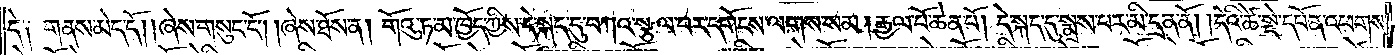དེ༑ གནས་མེད་དོ། །ཞེས་གསུང་ངོ༌། །ཞེས་ཐོས་ན། གོའུ་ཏ་མ་ཁྱོད་ཀྱིས་དེ་སྐད་དུ་བཀའ་སྩལ་བར་དགོངས་ལགས་སམ། རྒྱལ་པོ་ཆེན་པོ། དེ་སྐད་དུ་སྨྲས་པར་མི་དྲན་ནོ། །དེའི་ཚེ་སྡེ་དཔོན་འཕགས་
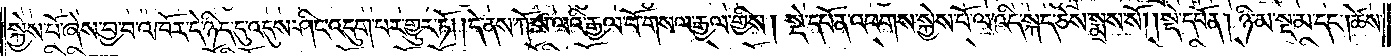སྐྱེས་བོ་ཞེས་བྱ་བ་འཁོར་དེ་ཉིད་དུ་འདུས་ཤིང་འདུག་པར་གྱུར་ཏོ། །དེ་ནས་ཀོ་ས་ལའི་རྒྱལ་པོ་གསལ་རྒྱལ་གྱིས། སྡེ་དཔོན་འཕགས་སྐྱེས་པོ་ལ་འདི་སྐད་ཅེས་སྨྲས་སོ། །སྡེ་དཔོན། ཉི་མ་སྔ་མ་དང༌། ཚེས་
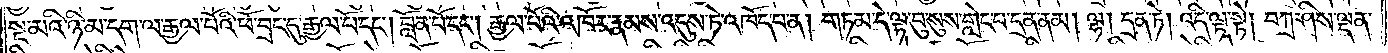སྔ་མའི་ཉི་མ་དག་ལ་རྒྱལ་པོའི་ཕོ་བྲང་དུ་རྒྱལ་པོ་དང༌། བློན་པོ་དང༌། རྒྱལ་པོའི་འཁོར་རྣམས་འདུས་ཏེ་འཁོད་པ་ན། གཏམ་དེ་ལྟ་བུ་སུས་གླེང་པ་དྲན་ནམ། ལྷ། དྲན་ཏེ། འདི་ལྟ་སྟེ། བཀྲ་ཤིས་ལྡན་
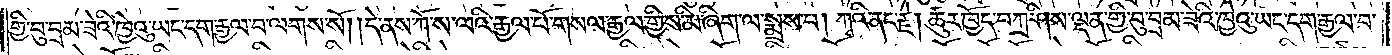གྱི་བུ་བྲམ་ཟེའི་ཁྱེའུ་ཡང་དག་རྒྱལ་བ་ལགས་སོ། །དེ་ནས་ཀོ་ས་ལའི་རྒྱལ་པོ་གསལ་རྒྱལ་གྱིས་མི་ཞིག་ལ་སྨྲས་པ། ཀྭའི་ནང་རྗེ། ཚུར་ཁྱོད་བཀྲ་ཤིས་ལྡན་གྱི་བུ་བྲམ་ཟེའི་ཁྱེའུ་ཡང་དག་རྒྱལ་བ་
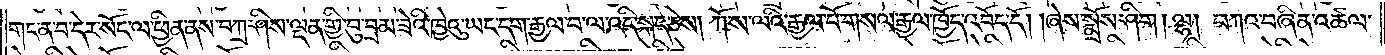གང་ན་བ་དེར་སོང་ལ་ཕྱིན་ནས་བཀྲ་ཤིས་ལྡན་གྱི་བུ་བྲམ་ཟེའི་ཁྱེའུ་ཡང་དག་རྒྱལ་བ་ལ་འདི་སྐད་ཅེས། ཀོ་ས་ལའི་རྒྱལ་པོ་གསལ་རྒྱལ་ཁྱོད་འབོད་དོ། །ཞེས་སྨྲོས་ཤིག། ལྷ། བཀའ་བཞིན་འཚལ་
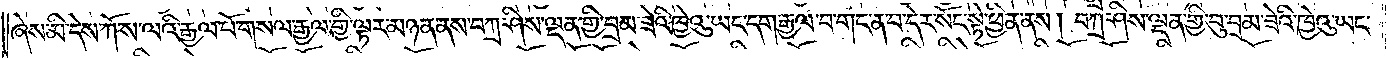ཞེས་མི་དེས་ཀོ་ས་ལའི་རྒྱལ་པོ་གསལ་རྒྱལ་གྱི་ལྟར་མཉན་ནས་བཀྲ་ཤིས་ལྡན་གྱི་བྲམ་ཟེའི་ཁྱེའུ་ཡང་དག་རྒྱལ་བ་གང་ན་བ་དེར་སོང་སྟེ་ཕྱིན་ནས། བཀྲ་ཤིས་ལྡན་གྱི་བུ་བྲམ་ཟེའི་ཁྱེའུ་ཡང་
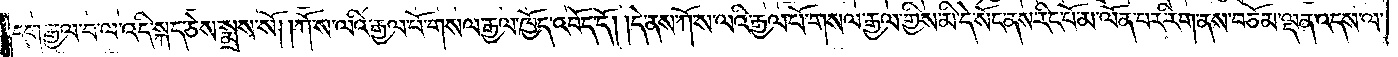དག་རྒྱལ་བ་ལ་འདི་སྐད་ཅེས་སྨྲས་སོ། །ཀོ་ས་ལའི་རྒྱལ་པོ་གསལ་རྒྱལ་ཁྱོད་འབོད་དོ། །དེ་ནས་ཀོ་ས་ལའི་རྒྱལ་པོ་གསལ་རྒྱལ་གྱིས་མི་དེ་སོང་ནས་རིང་པོ་མ་ལོན་པར་རིག་ནས་བཅོམ་ལྡན་འདས་ལ་
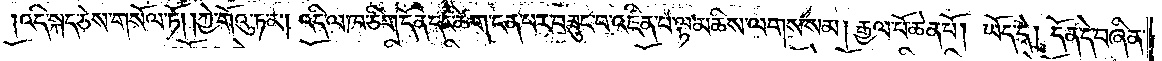འདི་སྐད་ཅེས་གསོལ་ཏོ། །ཀྱེ་གོའུ་ཏ་མ། འདི་ལ་ཁ་ཅིག་དོན་དང་ཚིག་ངན་པར་བཟུང་བ་འཛིན་པ་ལྟ་མཆིས་ལགས་སམ། རྒྱལ་པོ་ཆེན་པོ། ཡོད་དེ། དོན་དེ་བཞིན་
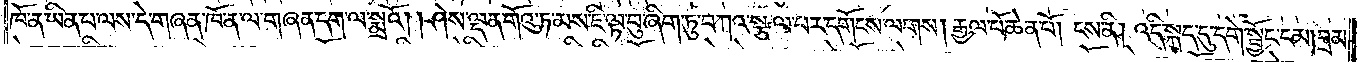ཁོ་ན་ཡིན་པ་ལས་དེ་གཞན་ཁོ་ན་ལ་གཞན་དག་ལ་སྨྲའོ། །ཤེས་ལྡན་གོའུ་ཏ་མས་ཇི་ལྟ་བུ་ཞིག་ཏུ་བཀའ་སྩལ་པར་དགོངས་ལགས། རྒྱལ་པོ་ཆེན་པོ། ངས་ནི། འདི་སྐད་དུ་དགེ་སྦྱོང་ངམ། བྲམ་
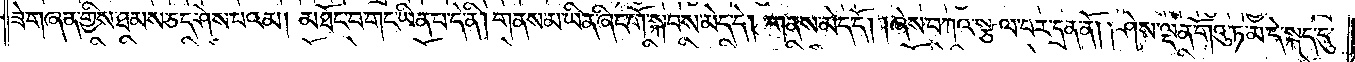ཟེ་གཞན་གྱིས་ཐམས་ཅད་ཤེས་པའམ། མཐོང་བ་གང་ཡིན་པ་དེ་ནི། གནས་མ་ཡིན་ཞིང་གོ་སྐབས་མེད་དེ། གནས་མེད་དོ། །ཞེས་བཀའ་སྩལ་པར་དྲན་ནོ། །ཤེས་ལྡན་གོའུ་ཏ་མ་དེ་སྐད་དུ་
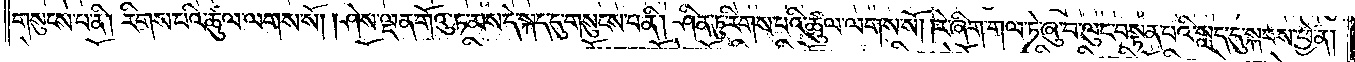གསུངས་པ་ནི། རིགས་པའི་ཚུལ་ལགས་སོ། །ཤེས་ལྡན་གོའུ་ཏ་མས་དེ་སྐད་དུ་གསུངས་པ་ནི། ཤིན་ཏུ་རིགས་པའི་ཚུལ་ལགས་སོ། །རེ་ཞིག་གལ་ཏེ་ཞུ་བ་ལུང་བསྟན་པའི་སླད་དུ་སྐབས་ཕྱེ་ན།
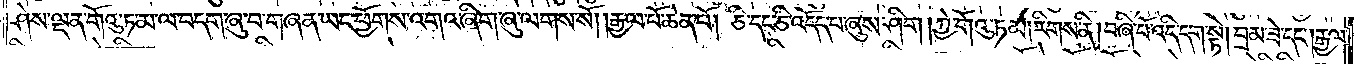ཤེས་ལྡན་གོའུ་ཏ་མ་ལ་བདག་ཞུ་བ་གཞན་ཡང་ཕྱོགས་འགའ་ཞིག་ཞུ་ལགས་སོ། །རྒྱལ་པོ་ཆེན་པོ། ཅི་དང་ཅི་འདོད་པ་ཞུས་ཤིག །ཀྱེ་གོའུ་ཏ་མ། རིགས་ནི། བཞི་པོ་འདི་དག་སྟེ། བྲམ་ཟེ་དང༌། རྒྱལ་
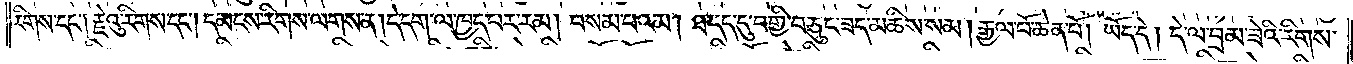རིགས་དང༌། རྗེའུ་རིགས་དང༌། དམངས་རིགས་ལགས་ན། དེ་དག་ལ་ཁྱད་པར་རམ། བསམ་པའམ། ཐ་དད་དུ་བགྱི་བ་ཅུང་ཟད་མཆིས་སམ། རྒྱལ་པོ་ཆེན་པོ། ཡོད་དེ། དེ་ལ་བྲམ་ཟེའི་རིགས་
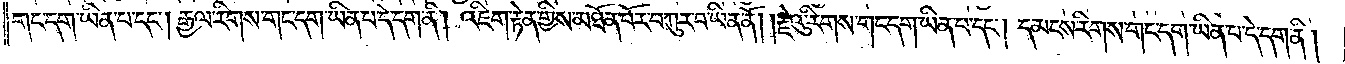གང་དག་ཡིན་པ་དང༌། རྒྱལ་རིགས་གང་དག་ཡིན་པ་དེ་དག་ནི། འཇིག་རྟེན་གྱིས་མཐོན་པོར་བཀུར་བ་ཡིན་ནོ། །རྗེའུ་རིགས་གང་དག་ཡིན་པ་དང༌། དམངས་རིགས་གང་དག་ཡིན་པ་དེ་དག་ནི།
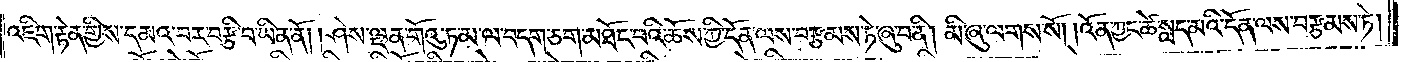འཇིག་རྟེན་གྱིས་དམའ་བར་བརྩི་བ་ཡིན་ནོ། །ཤེས་ལྡན་གོའུ་ཏ་མ་ལ་བདག་ཅག་མཐོང་བའི་ཆོས་ཀྱི་དོན་ལས་བརྩམས་ཏེ་ཞུ་བ་ནི། མི་ཞུ་ལགས་སོ། །འོན་ཀྱང་ཚེ་སླད་མའི་དོན་ལས་བརྩམས་ཏེ།
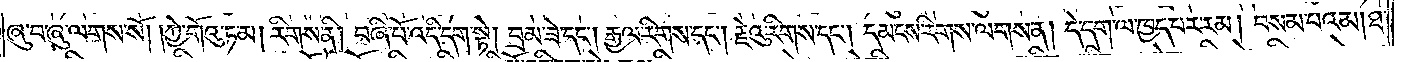ཞུ་བ་ཞུ་ལགས་སོ། །ཀྱེ་གོའུ་ཏ་མ། རིགས་ནི། བཞི་པོ་འདི་དག་སྟེ། བྲམ་ཟེ་དང༌། རྒྱལ་རིགས་དང༌། རྗེའུ་རིགས་དང༌། དམངས་རིགས་ལགས་ན། དེ་དག་ལ་ཁྱད་པར་རམ། བསམ་པའམ། ཐ་
